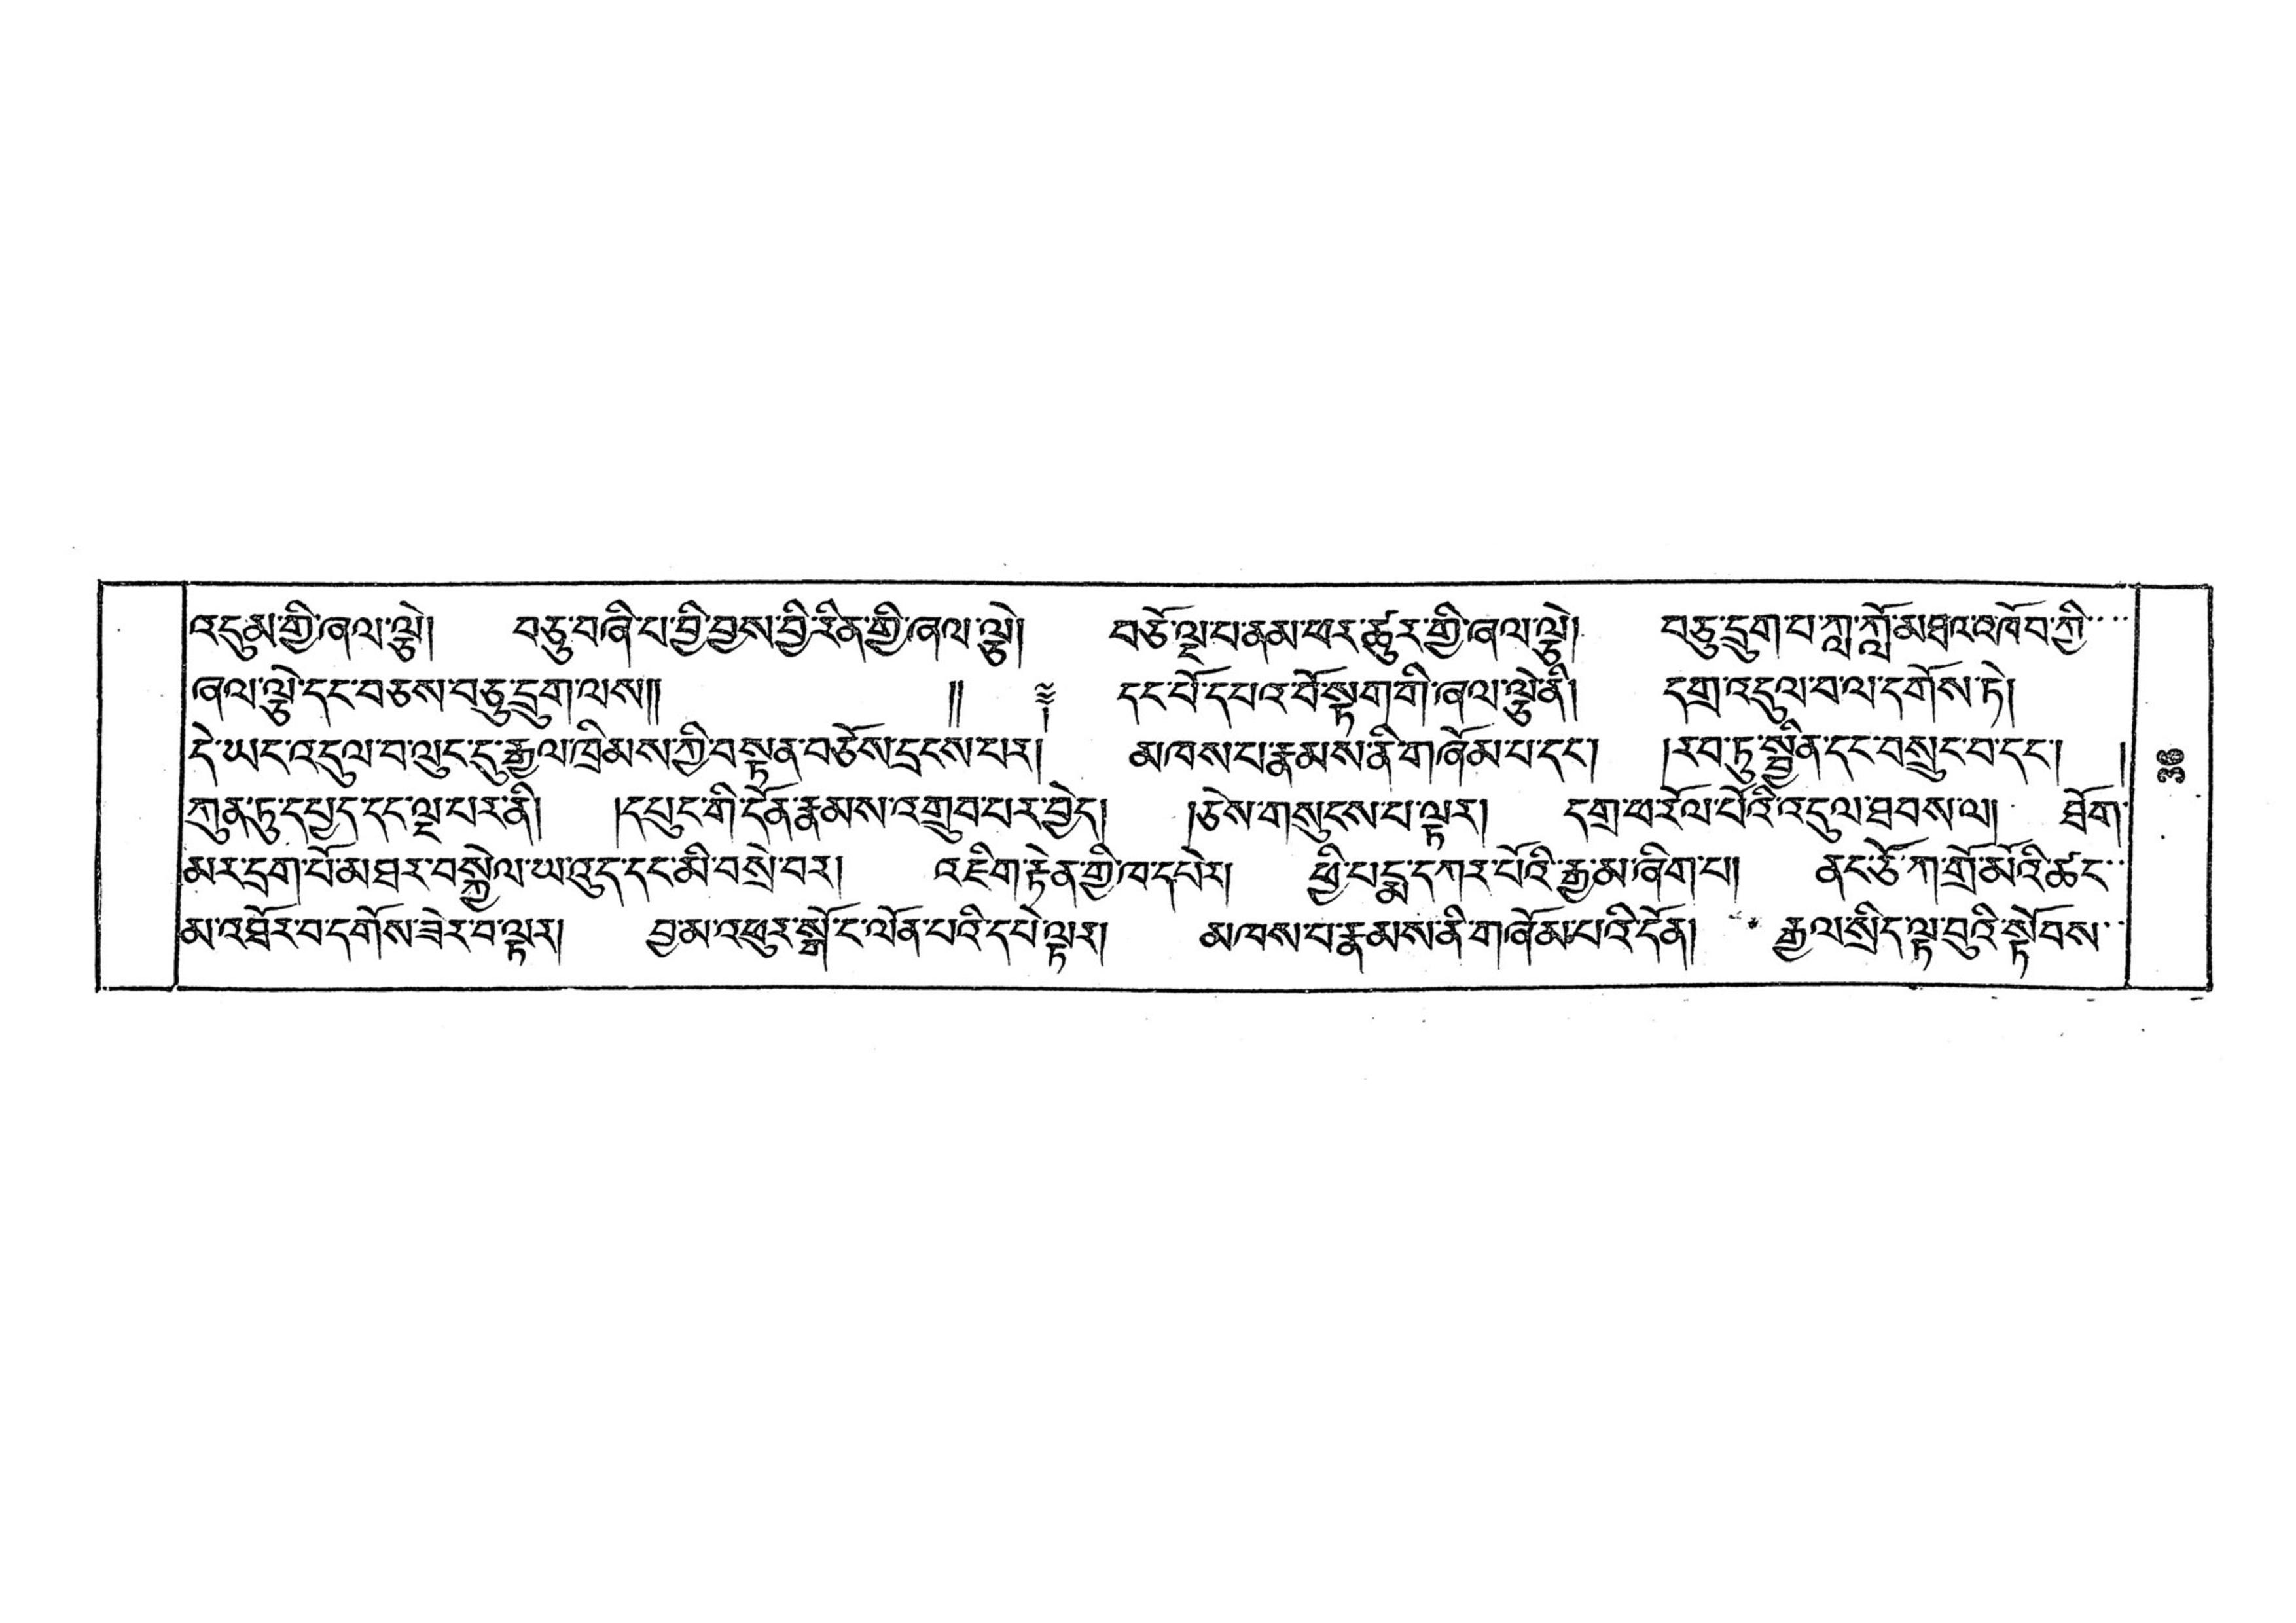འདུམ་གྱི་ཞལ་ལྕེ། བཅུ་བཞི་པ་བྱི་བྱས་བྱི་རིན་གྱི་ཞལ་ལྕེ། བཅོ་ལྔ་པ་ནམ་ཕར་ཚུར་གྱི་ཞལ་ལྕེ། བཅུ་དྲུག་པ་ཀླ་སློ་མཐའ་འཁོབ་ཀྱི་་་་
ཞལ་ལྕེ་དང་བཅས་བཅུ་དྲུག་ལས།།  །། ༈ དང་པོ་དཔའ་བོ་སྟག་གི་ཞལ་ལྕེ་ནི། དགྲ་འདུལ་བ་ལ་དགོས་ཏེ།
དེ་ཡང་འདུལ་བ་ལུང་དུ་རྒྱལ་ཁྲིམས་ཀྱི་བསྟན་བཅོས་དྲངས་པར། མཁས་པ་རྣམས་ནི་གཞོམ་པ་དང་། །རབ་ཏུ་སྦྱིན་དང་བསྲུང་བ་དང་། །
ཀུན་ཏུ་དཔྱད་དང་ལྔ་པར་ནི། །དཔུང་གི་དོན་རྣམས་འགྲུབ་པར་བྱེད། །ཅེས་གསུངས་པ་ལྟར། དགྲ་ཕ་རོལ་པོའི་འདུལ་ཐབས་ལ། ཐོག་
མར་དྲག་པོ་མཐར་བསྐྱེལ་ཡ་འུད་དང་མི་བསྲེ་བར། འཇིག་རྟེན་གྱི་ཁ་དཔེར། ཕྱི་པདྨ་དཀར་པོའི་རྒྱ་མ་ཞིག་པ། ནང་ཅོ་ཀ་གྲོ་མོའི་ཚང་་
མ་འཐོར་བ་དགོས་ཟེར་བ་ལྟར། བྱ་མ་འཕུར་སྒོ་ང་ལོན་པའི་དཔེ་ལྟར། མཁས་པ་རྣམས་ནི་གཞོམ་པའི་དོན། རྒྱལ་སྲིད་ལྟ་བུའི་སྟོབས་་
